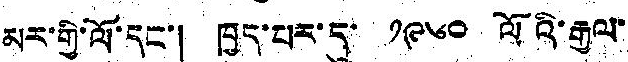མར་གྱི་ལོ་དང་། ཁྱད་པར་དུ་ ༡༩༦༠ ལོའི་རྒྱལ་
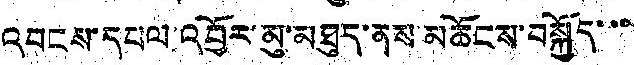འབངས་དཔལ་འབྱོར་མུ་མཐུད་ནས་མཆོངས་བསྐྱོད་་་
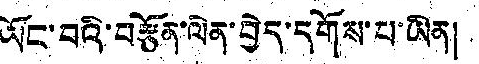ཡོང་བའི་བརྩོན་ལེན་བྱེད་དགོས་པ་ཡིན།
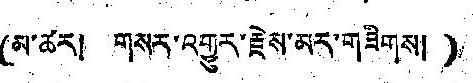(མ་ཚར། གསར་འགྱུར་རྗེས་མར་གཟིགས།)
